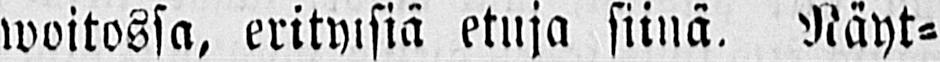woitossa, erityisiä etuja siinä. Näyt-
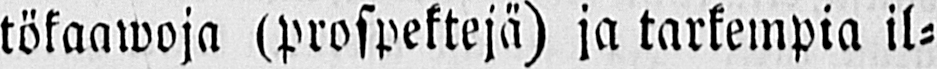tökaawoja (prospektejä) ja tarkempia il-
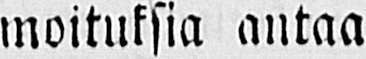moituksia antaa
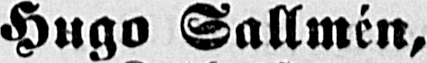Hugo Sallmé n,
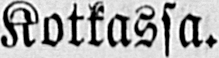Kotkassa.
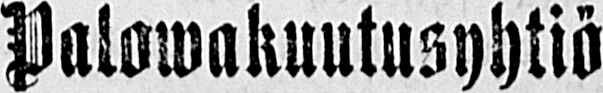Palowakuutusyhtiö
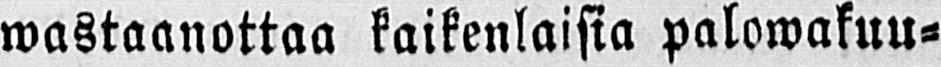wastaanottaa kaikenlaisia palowakuu-
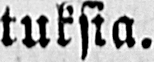tuksia.
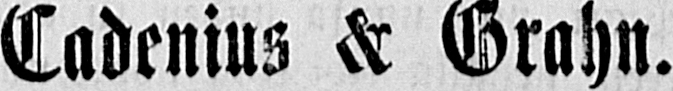Cadenius & Grahn.
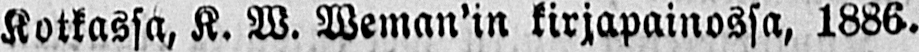Kotkassa, K. W. Weman'in kirjapainossa, 1886.
